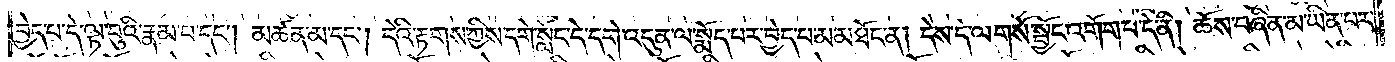བྱེད་པ་དེ་ལྟ་བུའི་རྣམ་པ་དང༌། མཚན་མ་དང༌། དེའི་རྟགས་ཀྱིས་དགེ་སློང་དེ་དགེ་འདུན་ལ་སྨོད་པར་བྱེད་པ་མ་མཐོང་ན། དེས་དེ་ལ་གསོ་སྦྱོང་འགོག་པ་དེ་ནི། ཆོས་བཞིན་མ་ཡིན་པར་
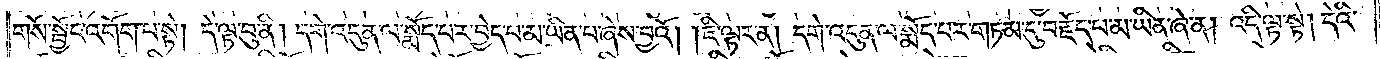གསོ་སྦྱོང་འགོག་པ་སྟེ། དེ་ལྟ་བུ་ནི། དགེ་འདུན་ལ་སྨོད་པར་བྱེད་པ་མ་ཡིན་པ་ཞེས་བྱའོ། །ཇི་ལྟར་ན། དགེ་འདུན་ལ་སྨོད་པར་གཏམ་དུ་བརྗོད་པ་མ་ཡིན་ཞེ་ན། འདི་ལྟ་སྟེ། དེའི་
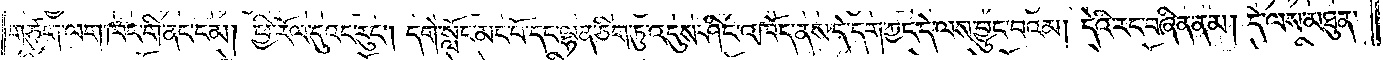གཙུག་ལག་ཁང་གི་ནང་ངམ། ཕྱི་རོལ་དུའང་རུང༌། དགེ་སློང་མང་པོ་དང་ལྷན་ཅིག་ཏུ་འདུས་ཤིང་འཁོད་ནས་དེ་དག་ཀྱང་དེ་ལས་བྱུང་བའམ། དེའི་རང་བཞིན་ནམ། དེ་ལས་མཐུན་
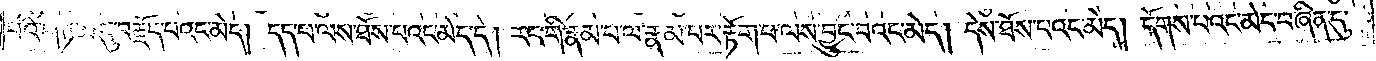པའི་གཏམ་དུ་བརྗོད་པའང་མེད། དད་པ་ལས་ཐོས་པའང་མེད་དེ། རང་གི་རྣམ་པ་ལ་རྣམ་པར་རྟོགས་པ་ལས་བྱུང་བའང་མེད། དེས་ཐོས་པའང་མེད། དོགས་པའང་མེད་བཞིན་དུ་
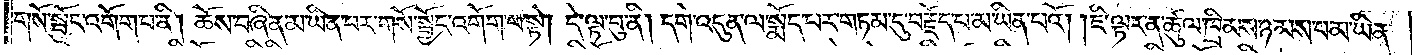གསོ་སྦྱོང་འགོག་པ་ནི། ཆོས་བཞིན་མ་ཡིན་པར་གསོ་སྦྱོང་འགོག་པ་སྟེ། དེ་ལྟ་བུ་ནི། དགེ་འདུན་ལ་སྨོད་པར་གཏམ་དུ་བརྗོད་པ་མ་ཡིན་པའོ། །ཇི་ལྟར་ན་ཚུལ་ཁྲིམས་ཉམས་པ་མ་ཡིན་
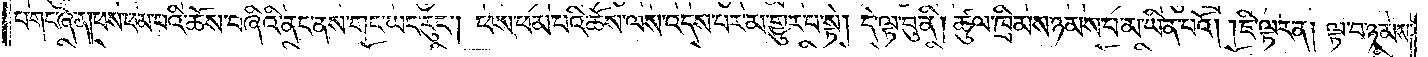པ་གང་ཞེ་ན། ཕས་ཕམ་པའི་ཆོས་བཞིའི་ནང་ནས་གང་ཡང་རུང༌། ཕས་ཕམ་པའི་ཆོས་ལས་འདས་པར་མ་གྱུར་པ་སྟེ། དེ་ལྟ་བུ་ནི་ཚུལ་ཁྲིམས་ཉམས་པ་མ་ཡིན་པའོ། །ཇི་ལྟར་ན། ལྟ་བ་ཉམས་
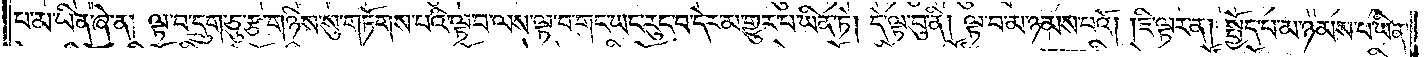པ་མ་ཡིན་ཞེ་ན། ལྟ་བ་དྲུག་ཅུ་རྩ་གཉིས་སུ་གཏོགས་པའི་ལྟ་བ་ལས་ལྟ་བ་གང་ཡང་རུང་བ་དེར་མ་གྱུར་པ་ཡིན་ཏེ། དེ་ལྟ་བུ་ནི། ལྟ་བ་མ་ཉམས་པའོ། །ཇི་ལྟར་ན། སྤྱོད་པ་མ་ཉམས་པ་ཡིན་
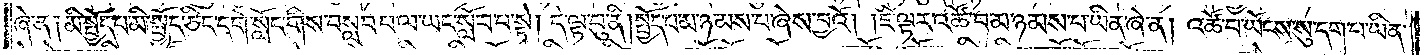ཞེ་ན༑ མི་སྤྱོད་པ་མི་སྤྱོད་ཅིང་དགེ་སློང་གིས་བསླབ་པ་ལ་ཡང་སློབ་པ་སྟེ། དེ་ལྟ་བུ་ནི། སྤྱོད་པ་མ་ཉམས་པ་ཞེས་བྱའོ། །ཇི་ལྟར་འཚོ་བ་མ་ཉམས་པ་ཡིན་ཞེ་ན། འཚོ་བ་ཡོངས་སུ་དག་པ་ཡིན་
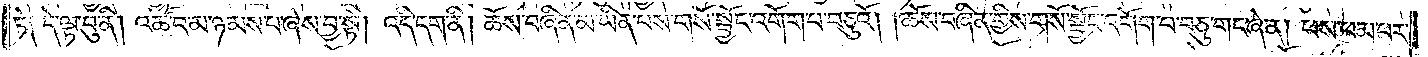ཏེ༑ དེ་ལྟ་བུ་ནི། འཚོ་བ་མ་ཉམས་པ་ཞེས་བྱ་སྟེ། འདི་དག་ནི། ཆོས་བཞིན་མ་ཡིན་པས་གསོ་སྦྱོང་འགོག་པ་བཅུའོ། །ཆོས་བཞིན་གྱིས་གསོ་སྦྱོང་འགོག་པ་བཅུ་གང་ཞེ་ན། ཕས་ཕམ་པར་
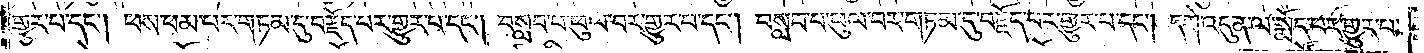གྱུར་པ་དང༌། ཕས་ཕམ་པར་གཏམ་དུ་བརྗོད་པར་གྱུར་པ་དང༌། བསླབ་པ་ཕུལ་བར་གྱུར་པ་དང༌། བསླབ་པ་ཕུལ་བར་གཏམ་དུ་བརྗོད་པར་གྱུར་པ་དང༌། དགེ་འདུན་ལ་སྨོད་པར་གྱུར་པ་
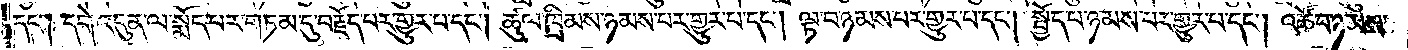དང༌། དགེ་འདུན་ལ་སྨོད་པར་གཏམ་དུ་བརྗོད་པར་གྱུར་པ་དང༌། ཚུལ་ཁྲིམས་ཉམས་པར་གྱུར་པ་དང༌། ལྟ་བ་ཉམས་པར་གྱུར་པ་དང༌། སྤྱོད་པ་ཉམས་པར་གྱུར་པ་དང༌། འཚོ་བ་ཉམས་
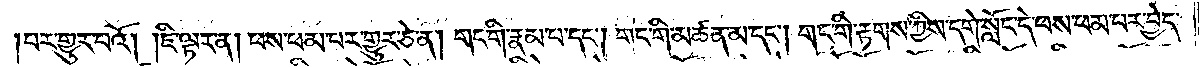པར་གྱུར་པའོ། །ཇི་ལྟར་ན། ཕས་ཕམ་པར་གྱུར་ཅེ་ན། གང་གི་རྣམ་པ་དང༌། གང་གི་མཚན་མ་དང༌། གང་གི་རྟགས་ཀྱིས་དགེ་སློང་དེ་ཕས་ཕམ་པར་བྱེད་
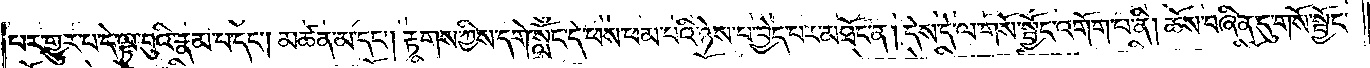པར་གྱུར་པ་དེ་ལྟ་བུའི་རྣམ་པ་དང༌། མཚན་མ་དང༌། རྟགས་ཀྱིས་དགེ་སློང་དེ་ཕས་ཕམ་པའི་ཉེས་པ་བྱེད་པར་མཐོང་ན། དེས་དེ་ལ་གསོ་སྦྱོང་འགོག་པ་ནི། ཆོས་བཞིན་དུ་གསོ་སྦྱོང་
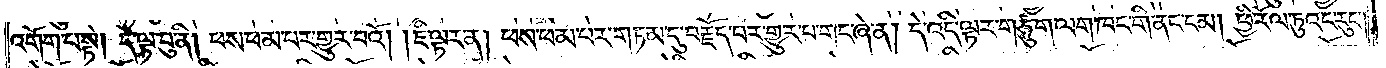འགོག་པ་སྟེ། དེ་ལྟ་བུ་ནི། ཕས་ཕམ་པར་གྱུར་བའོ། །ཇི་ལྟར་ན། ཕས་ཕམ་པར་གཏམ་དུ་བརྗོད་པར་གྱུར་པ་གང་ཞེ་ན། དེ་འདི་ལྟར་གཙུག་ལག་ཁང་གི་ནང་ངམ། ཕྱི་རོལ་ཏུའང་རུང་
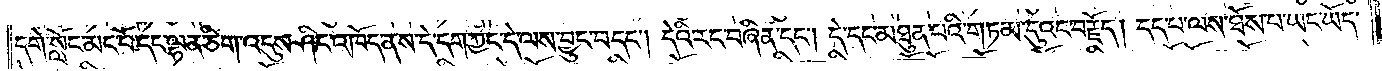དགེ་སློང་མང་པོ་དང་ལྷན་ཅིག་འདུས་ཤིང་འཁོད་ནས་དེ་དག་ཀྱང་དེ་ལས་བྱུང་བ་དང༌། དེའི་རང་བཞིན་དང༌། དེ་དང་མཐུན་པའི་གཏམ་དུའང་བརྗོད། །དད་པ་ལས་ཐོས་པ་ཡང་ཡོད་
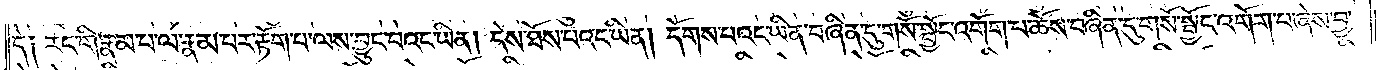དེ༑ རང་གི་རྣམ་པ་ལ་རྣམ་པར་རྟོག་པ་ལས་བྱུང་བའང་ཡིན། དེས་ཐོས་པའང་ཡིན། དོགས་པའང་ཡིན་བཞིན་དུ་གསོ་སྦྱོང་འགོག་པ་ཆོས་བཞིན་དུ་གསོ་སྦྱོང་འགོག་པ་ཞེས་བྱ་
